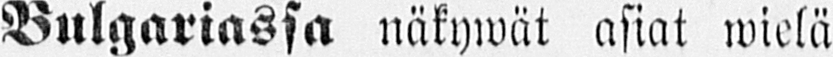Bulgariassa näkywät asiat wiela
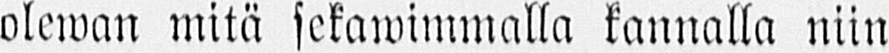olewan mitä sekawimmalla kannalla niin
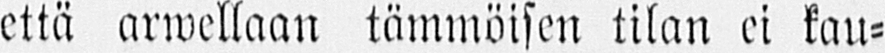että arwellaan tämmöisen tilan ei kau-
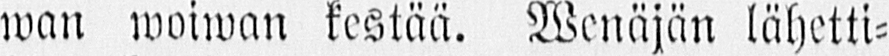wan woiwan kestää. Wenäjän lähetti-
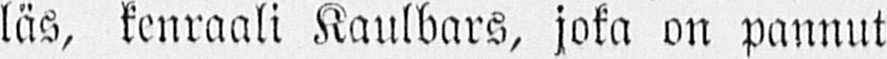läs, kenraali Kaulbars, joka on pannut
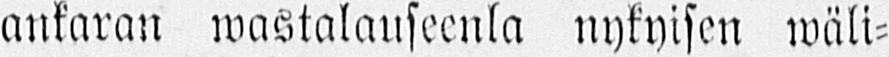ankaran wastalauseenla nykyisen wäli-
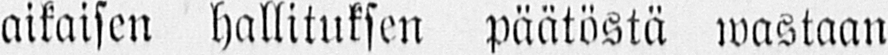aikaisen hallituksen päätöstä wastaan
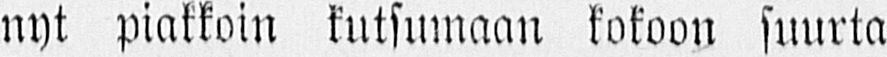nyt piakkoin kutsumaan kokoon suurta
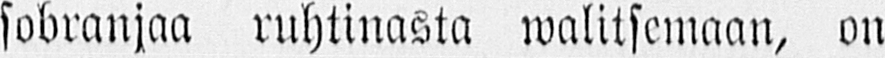sobranjaa ruhtinasta walitsemaan, on
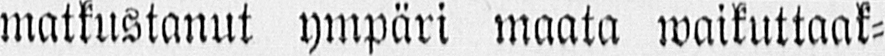matkustanut ympäri maata waikuttaak-
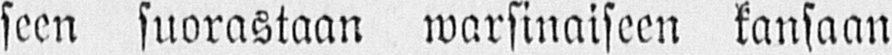seen suorastaan warsinaiseen kansaan
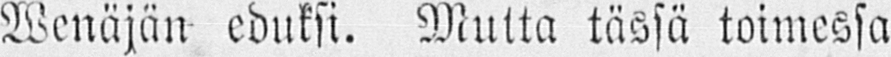Wenäjän eduksi. Mutta tässä toimessa
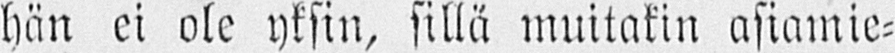hän ei ole yksin, sillä muitakin asiamie-
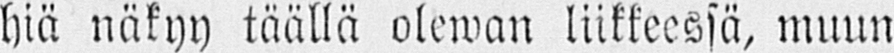hiä näkyy täällä olewan liikkeessä, muun
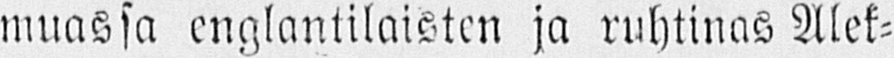muassa englantilaisten ja ruhtinas Alek-
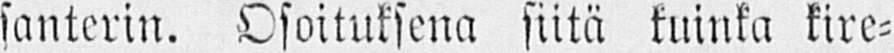santerin. Osoituksena siitä kuinka kire-
